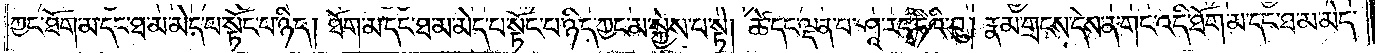ཀྱང་ཐོག་མ་དང་ཐ་མ་མེད་པ་སྟོང་པ་ཉིད། ཐོག་མ་དང་ཐ་མ་མེད་པ་སྟོང་པ་ཉིད་ཀྱང་མ་སྐྱེས་པ་སྟེ། ཚེ་དང་ལྡན་པ་ཤཱ་ར་དྭ་ཏིའི་བུ། རྣམ་གྲངས་དེས་ན་གང་འདི་ཐོག་མ་དང་ཐ་མ་མེད་
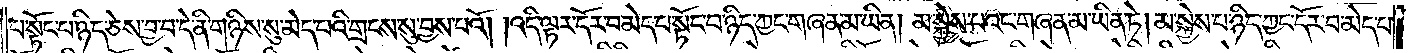པ་སྟོང་པ་ཉིད་ཅེས་བྱ་བ་དེ་ནི་གཉིས་སུ་མེད་པའི་གྲངས་སུ་མེད་བྱས་པའོ། །འདི་ལྟར་དོར་བ་མེད་པ་སྟོང་པ་ཉིད་ཀྱང་གཞན་མ་ཡིན། མ་སྐྱེས་པའང་གཞན་མ་ཡིན་ཏེ། མ་སྐྱེས་པ་ཉིད་ཀྱང་དོར་བ་མེད་པ་
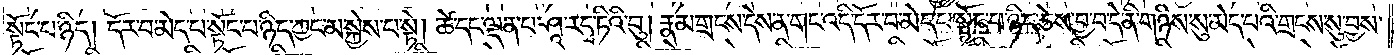སྟོང་པ་ཉིད། དོར་བ་མེད་པ་སྟོང་པ་ཉིད་ཀྱང་མ་སྐྱེས་པ་སྟེ། ཚེ་དང་ལྡན་པ་ཤཱ་ར་དྭ་ཏིའི་བུ། རྣམ་གྲངས་དེས་ན་གང་འདི་དོར་བ་མེད་པ་སྟོང་པ་ཉིད་ཅེས་བྱ་བ་དེ་ནི་གཉིས་སུ་མེད་པའི་གྲངས་སུ་བྱས་
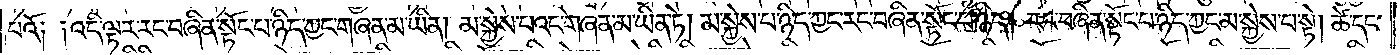པའོ༏ ༏འདི་ལྟར་རང་བཞིན་སྟོང་པ་ཉིད་ཀྱང་གཞན་མ་ཡིན། མ་སྐྱེས་པའང་གཞན་མ་ཡིན་ཏེ། མ་སྐྱེས་པ་ཉིད་ཀྱང་རང་བཞིན་སྟོང་པ་ཉིད། རང་བཞིན་སྟོང་པ་ཉིད་ཀྱང་མ་སྐྱེས་པ་སྟེ། ཚེ་དང་
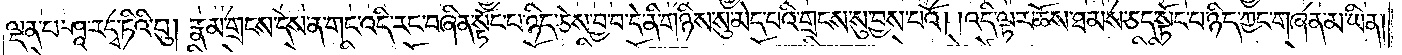ལྡན་པ་ཤཱ་ར་དྭ་ཏིའི་བུ། རྣམ་གྲངས་དེས་ན་གང་འདི་རང་བཞིན་སྟོང་པ་ཉིད་ཅེས་བྱ་བ་དེ་ནི་གཉིས་སུ་མེད་པའི་གྲངས་སུ་བྱས་པའོ། །འདི་ལྟར་ཆོས་ཐམས་ཅད་སྟོང་པ་ཉིད་ཀྱང་གཞན་མ་ཡིན།
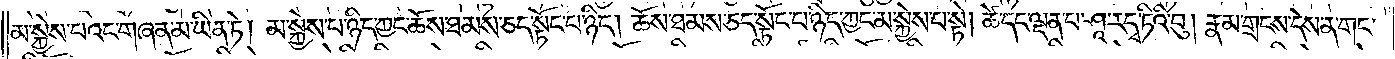མ་སྐྱེས་པའང་གཞན་མ་ཡིན་ཏེ། མ་སྐྱེས་པ་ཉིད་ཀྱང་ཆོས་ཐམས་ཅད་སྟོང་པ་ཉིད། ཆོས་ཐམས་ཅད་སྟོང་པ་ཉིད་ཀྱང་མ་སྐྱེས་པ་སྟེ། ཚེ་དང་ལྡན་པ་ཤཱ་ར་དྭ་ཏིའི་བུ། རྣམ་གྲངས་དེས་ན་གང་
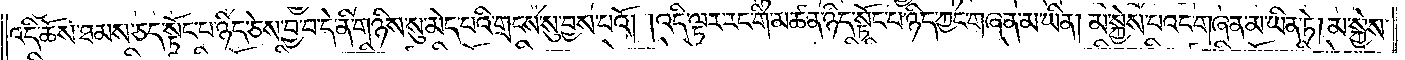འདི་ཆོས་ཐམས་ཅད་སྟོང་པ་ཉིད་ཅེས་བྱ་བ་དེ་ནི་གཉིས་སུ་མེད་པའི་གྲངས་སུ་བྱས་པའོ། །འདི་ལྟར་རང་གི་མཚན་ཉིད་སྟོང་པ་ཉིད་ཀྱང་གཞན་མ་ཡིན། མ་སྐྱེས་པའང་གཞན་མ་ཡིན་ཏེ། མ་སྐྱེས་
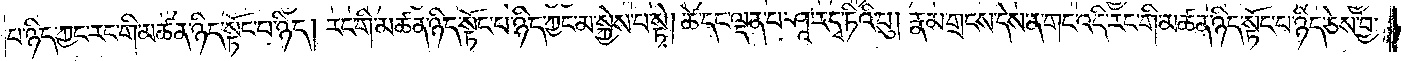པ་ཉིད་ཀྱང་རང་གི་མཚན་ཉིད་སྟོང་པ་ཉིད། རང་གི་མཚན་ཉིད་སྟོང་པ་ཉིད་ཀྱང་མ་སྐྱེས་པ་སྟེ། ཚེ་དང་ལྡན་པ་ཤཱ་ར་དྭ་ཏིའི་བུ། རྣམ་གྲངས་དེས་ན་གང་འདི་རང་གི་མཚན་ཉིད་སྟོང་པ་ཉིད་ཅེས་བྱ་
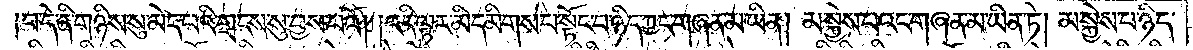བ་དེ་ནི་གཉིས་སུ་མེད་པའི་གྲངས་སུ་བྱས་པའོ། །འདི་ལྟར་མི་དམིགས་པ་སྟོང་པ་ཉིད་ཀྱང་གཞན་མ་ཡིན། མ་སྐྱེས་པའང་གཞན་མ་ཡིན་ཏེ། མ་སྐྱེས་པ་ཉིད་
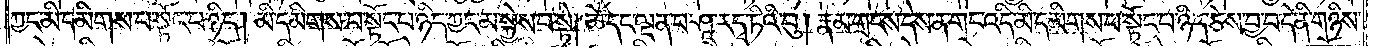ཀྱང་མི་དམིགས་པ་སྟོང་པ་ཉིད། མི་དམིགས་པ་སྟོང་པ་ཉིད་ཀྱང་མ་སྐྱེས་པ་སྟེ། ཚེ་དང་ལྡན་པ་ཤཱ་ར་དྭ་ཏིའི་བུ། རྣམ་གྲངས་དེས་ན་གང་འདི་མི་དམིགས་པ་སྟོང་པ་ཉིད་ཅེས་བྱ་བ་དེ་ནི་གཉིས་
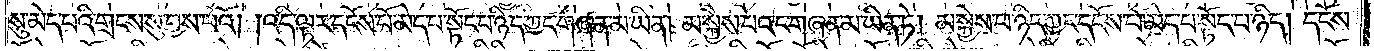སུ་མེད་པའི་གྲངས་སུ་བྱས་པའོ། །འདི་ལྟར་དངོས་པོ་མེད་པ་སྟོང་པ་ཉིད་ཀྱང་གཞན་མ་ཡིན། མ་སྐྱེས་པའང་གཞན་མ་ཡིན་ཏེ། མ་སྐྱེས་པ་ཉིད་ཀྱང་དངོས་པོ་མེད་པ་སྟོང་པ་ཉིད། དངོས་
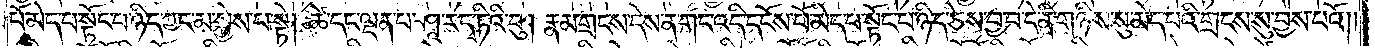པོ་མེད་པ་སྟོང་པ་ཉིད་ཀྱང་མ་སྐྱེས་པ་སྟེ། ཚེ་དང་ལྡན་པ་ཤཱ་ར་དྭ་ཏིའི་བུ། རྣམ་གྲངས་དེས་ན་གང་འདི་དངོས་པོ་མེད་པ་སྟོང་པ་ཉིད་ཅེས་བྱ་བ་དེ་ནི་གཉིས་སུ་མེད་པའི་གྲངས་སུ་བྱས་པའོ། །
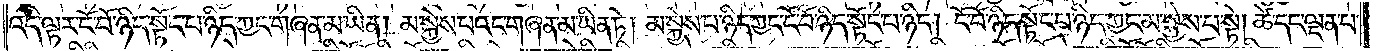འདི་ལྟར་ངོ་བོ་ཉིད་སྟོང་པ་ཉིད་ཀྱང་གཞན་མ་ཡིན། མ་སྐྱེས་པའང་གཞན་མ་ཡིན་ཏེ། མ་སྐྱེས་པ་ཉིད་ཀྱང་ངོ་བོ་ཉིད་སྟོང་པ་ཉིད། ངོ་བོ་ཉིད་སྟོང་པ་ཉིད་ཀྱང་མ་སྐྱེས་པ་སྟེ། ཚེ་དང་ལྡན་པ་
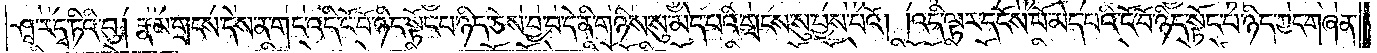ཤཱ་ར་དྭ་ཏིའི་བུ། རྣམ་གྲངས་དེས་ན་གང་འདི་ངོ་བོ་ཉིད་སྟོང་པ་ཉིད་ཅེས་བྱ་བ་དེ་ནི་གཉིས་སུ་མེད་པའི་གྲངས་སུ་བྱས་པའོ། །འདི་ལྟར་དངོས་པོ་མེད་པའི་ངོ་བོ་ཉིད་སྟོང་པ་ཉིད་ཀྱང་གཞན་
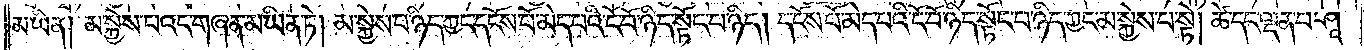མ་ཡིན། མ་སྐྱེས་པའང་གཞན་མ་ཡིན་ཏེ། མ་སྐྱེས་པ་ཉིད་ཀྱང་དངོས་པོ་མེད་པའི་ངོ་བོ་ཉིད་སྟོང་པ་ཉིད། དངོས་པོ་མེད་པའི་ངོ་བོ་ཉིད་སྟོང་པ་ཉིད་ཀྱང་མ་སྐྱེས་པ་སྟེ། ཚེ་དང་ལྡན་པ་ཤཱ་
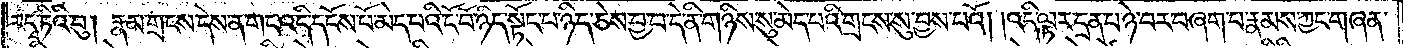ར་དྭ་ཏིའི་བུ། རྣམ་གྲངས་དེས་ན་གང་འདི་དངོས་པོ་མེད་པའི་ངོ་བོ་ཉིད་སྟོང་པ་ཉིད་ཅེས་བྱ་བ་དེ་ནི་གཉིས་སུ་མེད་པའི་གྲངས་སུ་བྱས་པའོ། །འདི་ལྟར་དྲན་པ་ཉེ་བར་བཞག་པ་རྣམས་ཀྱང་གཞན་
